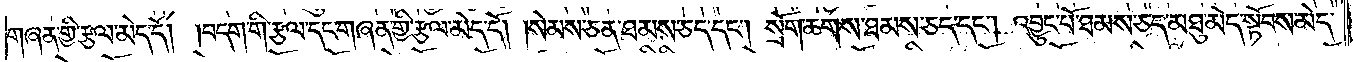གཞན་གྱི་རྩལ་མེད་དོ། །བདག་གི་རྩལ་དང་གཞན་གྱི་རྩལ་མེད་དོ། །སེམས་ཅན་ཐམས་ཅད་དང༌། སྲོག་ཆགས་ཐམས་ཅད་དང༌། འབྱུང་པོ་ཐམས་ཅད་མཐུ་མེད་སྟོབས་མེད་
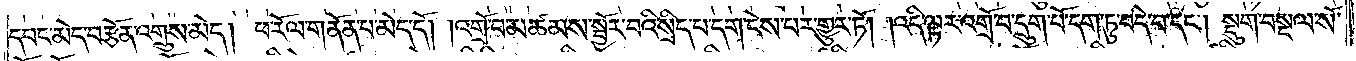དབང་མེད་བརྩོན་འགྲུས་མེད། ཕ་རོལ་གནོན་པ་མེད་དོ། །འགྲོ་བ་མཚམས་སྦྱོར་བའི་སྲིད་པ་དག་ངེས་པར་གྱུར་ཏོ། །འདི་ལྟར་འགྲོ་བ་དྲུག་པོ་དག་ཏུ་བདེ་བ་དང༌། སྡུག་བསྔལ་སོ་
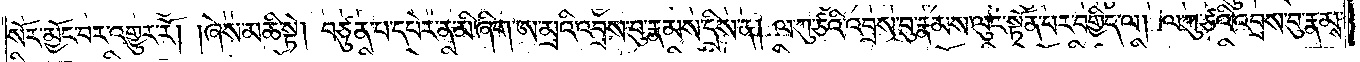སོར་མྱོང་བར་འགྱུར་རོ། །ཞེས་མཆི་སྟེ། བཙུན་པ་དཔེར་ན་མི་ཞིག་ཨ་མྲའི་འབྲས་བུ་རྣམས་དྲིས་ན། ལ་ཀུ་ཙའི་འབྲས་བུ་རྣམས་ལུང་སྟོན་པར་བགྱིད་ལ། ལ་ཀུ་ཙའི་འབྲས་བུ་རྣམས་
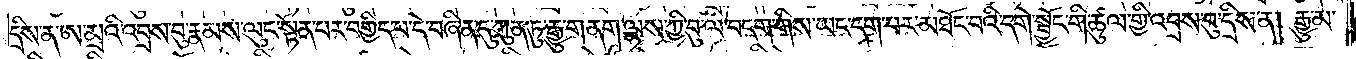དྲིས་ན་ཨ་མྲའི་འབྲས་བུ་རྣམས་ལུང་སྟོན་པར་བགྱིད་པ་དེ་བཞིན་དུ་ཀུན་ཏུ་རྒྱུ་གནག་ལྷས་ཀྱི་བུ་ལ་བདག་གིས་ཡང་དག་པར་མཐོང་བའི་དགེ་སྦྱོང་གི་ཚུལ་གྱི་འབྲས་བུ་དྲིས་ན། རྒྱུ་མ་
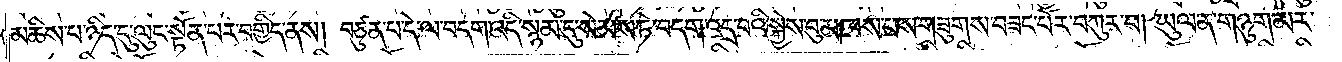མཆིས་པ་ཉིད་དུ་ལུང་སྟོན་པར་བགྱིད་ནས། བཙུན་པ་དེ་ལ་བདག་འདི་སྙམ་དུ་སེམས་ཏེ་བདག་འདྲ་བའི་སྐྱེས་བུ་མཁས་པས་གཟུགས་བཟང་པོར་བཀུར་བ། ཡུལ་ན་གཉུག་མར་
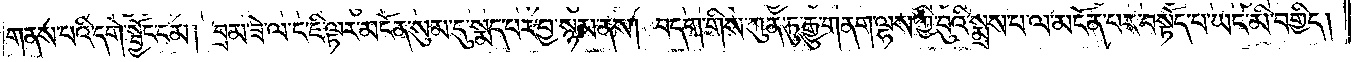གནས་པའི་དགེ་སྦྱོང་ངམ། བྲམ་ཟེ་ལ་ང་ཇི་ལྟར་མངོན་སུམ་དུ་སྨད་པར་བྱ་སྙམ་ནས། བདག་གིས་ཀུན་ཏུ་རྒྱུ་གནག་ལྷས་ཀྱི་བུའི་སྨྲས་པ་ལ་མངོན་པར་བསྟོད་པ་ཡང་མི་བགྱིད།
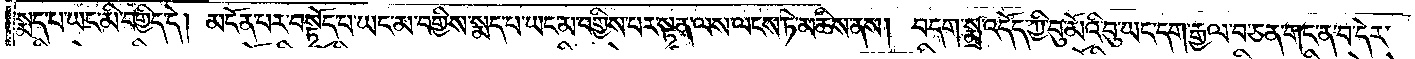སྨད་པ་ཡང་མི་བགྱིད་དེ། མངོན་པར་བསྟོད་པ་ཡང་མ་བགྱིས་སྨད་པ་ཡང་མ་བགྱིས་པར་སྟན་ལས་ལངས་ཏེ་མཆིས་ནས། བདག་སྨྲ་འདོད་ཀྱི་བུ་མོའི་བུ་ཡང་དག་རྒྱལ་བ་ཅན་གང་ན་བ་དེར་
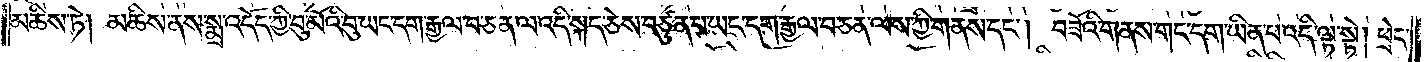མཆིས་ཏེ། མཆིས་ནས་སྨྲ་འདོད་ཀྱི་བུ་མོའི་བུ་ཡང་དག་རྒྱལ་བ་ཅན་ལ་འདི་སྐད་ཅེས་བཙུན་པ་ཡང་དག་རྒྱལ་བ་ཅན་ལས་ཀྱི་གནས་དང༌། བཟོའི་གནས་གང་དག་ཡིན་པ་འདི་ལྟ་སྟེ། ཕྲེང་
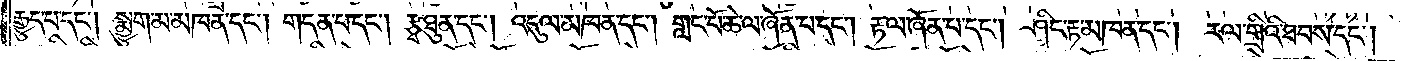རྒྱུད་པ་དང༌། སྨྱུག་མ་མཁན་དང༌། གདན་པ་དང༌། རྩྭ་ཐུན་དང༌། འདུལ་མཁན་དང༌། གླང་པོ་ཆེ་ལ་ཞོན་པ་དང༌། རྟ་ལ་ཞོན་པ་དང༌། ཤིང་རྟ་མཁན་དང༌། རལ་གྲིའི་ཐབས་དང༌།
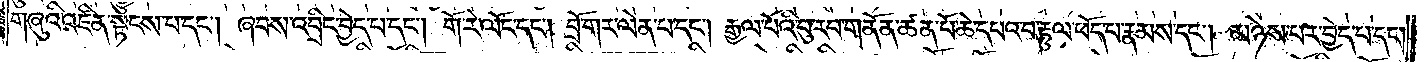གཞུའི་འཛིན་སྟངས་པ་དང༌། ཞབས་འབྲིང་བྱེད་པ་དང༌། གོ་རེ་ལོང་དང༌། བྲོ་གར་ལེན་པ་དང༌། རྒྱལ་པོའི་བུ་རབ་གནོན་ཚན་པོ་ཆེ་དཔའ་བ་རྟུལ་ཕོད་པ་རྣམས་དང༌། མཉེས་པར་བྱེད་པ་དང༌།
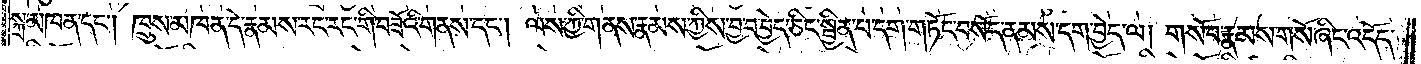སྐྲ་མཁན་དང༌། ཁྲུས་མཁན་དེ་རྣམས་རང་རང་གི་བཟོའི་གནས་དང༌། ལས་ཀྱི་གནས་རྣམས་ཀྱིས་བྱ་བ་བྱེད་ཅིང་སྦྱིན་པ་དག་གཏོང་བསོད་ནམས་དག་བྱེད་ལ། གསོ་བ་རྣམས་གསོ་ཞིང་འདོད་
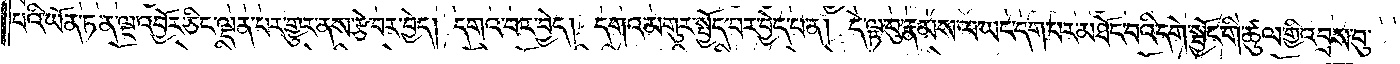པའི་ཡོན་ཏན་ལྔ་འབྱོར་ཅིང་ལྡན་པར་གྱུར་ནས་རྩེ་བར་བྱེད། དགའ་བར་བྱེད། དགའ་མགུར་སྤྱོད་པར་བྱེད་པ་ན། དེ་ལྟ་བུ་རྣམས་ལ་ཡང་དག་པར་མཐོང་བའི་དགེ་སྦྱོང་གི་ཚུལ་གྱི་འབྲས་བུ་
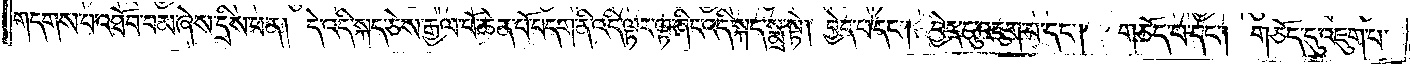གདགས་པ་འཐོབ་བམ་ཞེས་དྲིས་པ་ན། དེ་འདི་སྐད་ཅེས་རྒྱལ་པོ་ཆེན་པོ་བདག་ནི་འདི་ལྟར་ལྟ་ཞིང་འདི་སྐད་སྨྲ་སྟེ། བྱེད་པ་དང༌། བྱེད་དུ་འཇུག་པ་དང༌། གཅོད་པ་དང༌། གཅོད་དུ་འཇུག་པ་
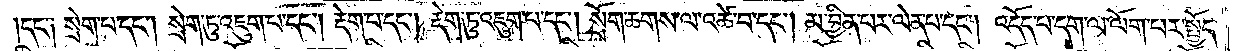དང་༑ སྲེག་པ་དང༌། སྲེག་ཏུ་འཇུག་པ་དང༌། རྡེག་པ་དང༌། རྡེག་ཏུ་འཇུག་པ་དང༌། སྲོག་ཆགས་ལ་འཚེ་བ་དང༌། མ་བྱིན་པར་ལེན་པ་དང༌། འདོད་པ་དག་ལ་ལོག་པར་སྤྱོད་
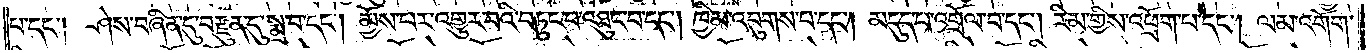པ་དང༌། ཤེས་བཞིན་དུ་བརྫུན་དུ་སྨྲ་བ་དང༌། མྱོས་པར་འགྱུར་བའི་བཏུང་བ་འཐུང་བ་དང༌། ཁྱིམ་འབུགས་པ་དང༌། མདུད་པ་འགྲོལ་བ་དང༌། རིམ་གྱིས་འཕྲོག་པ་དང༌། ལམ་འགོག་
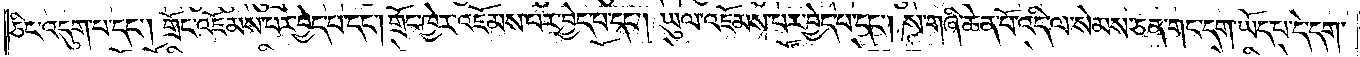ཅིང་འདུག་པ་དང༌། གྲོང་འཇོམས་པར་བྱེད་པ་དང༌། གྲོང་ཁྱེར་འཇོམས་པར་བྱེད་པ་དང༌། ཡུལ་འཇོམས་པར་བྱེད་པ་དང༌། ས་གཞི་ཆེན་པོ་འདི་ལ་སེམས་ཅན་གང་དག་ཡོད་པ་དེ་དག་
